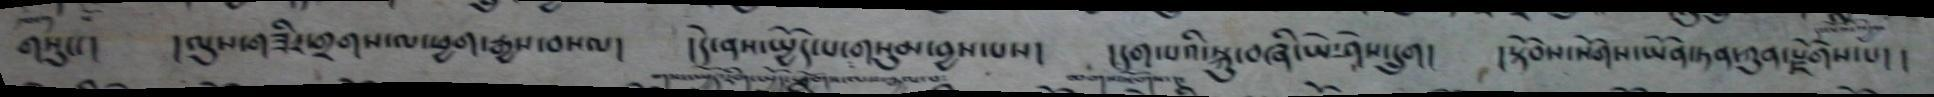གསུང།   །ལུས་གཟིར་གྲགས་ལ་ཕྱག་རྒྱས་བསལ།   །དེ་ནས་སྤྱོད་པ་གསུམ་བྱས་པས།   །དག་པའི་སྐུ་བཞི་ཡེ་ཤེས་དྲུག།   །སྟོབས་སོགས་ཡོན་ཏན་ཀུན་རྗོགས་པ། །
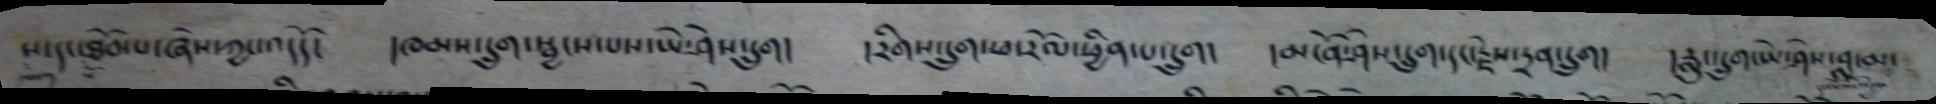ས་དང་ཐོབ་པ་ཞེས་ཀྱང་འདོད། །ཁམས་དྲུག་སྦྱངས་པས་ཡེ་ཤེས་དྲུག། །རིགས་དྲུག་ཕ རོལ་ཕྱིན་པ་དྲུག། །མངོན་ཤེས་དྲུག་དང་རྗེས་དྲན་དྲུག། །རླུང་དྲུག་ཡེ་ཤེས་བླ་མ་
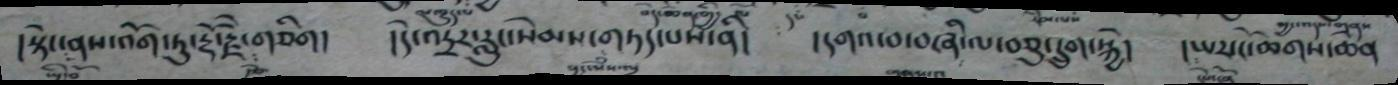།སྟེང་ནས་འོག་ཏུ་རྡོ་རྗེ་གཅིག།    །དེ་འདྲར་རླུང་སེམས་གཏད་པས་ནི།   །དགའ་བ་བཞི་ལ་བཅུ་དྲུག་སྐྱེ།  །ཡར་ངོ་ཆགས་ཆེན
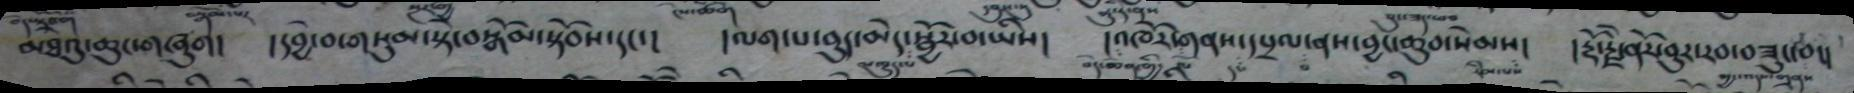མཐེའུ་ཆུང་གཞུག།   །དབྱེ་བ་གསུམ་སྟེ་བསྒོམ་སྟོབས་དང་།  །ལག་པ་བུད་མེད་སྦྱོར་བ་ཡིས།  །འཁོར་གནས་དཔྲལ་ནས་བྱང་ཆུབ་སེམས།   །རྡོ་རྗེ་ནོར་བུར་རབ་བཟུང་བ།།
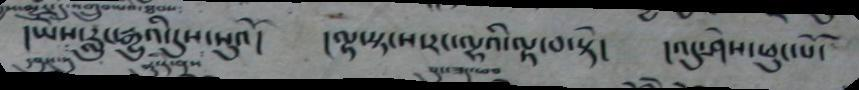།ཡེེས་རླུང་རྒྱུའི་དུས་སུའོ།    །ལྟ་སྟངས་རང་ལྷའི་ལྟ་བ་སྟེ།   །འདུ་ཤེས་ཕུང་པོ་
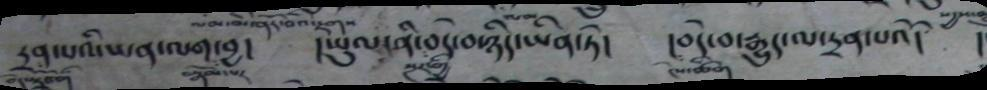དྲན་པའི་ཡན་ལག་བྱ།   །ཡུལ་ནི་བདེ་བ་ཉིད་ཡིན་ཏེ།    བདེ་བ་རྒྱུད་ལ་དྲན་པའོ།     །
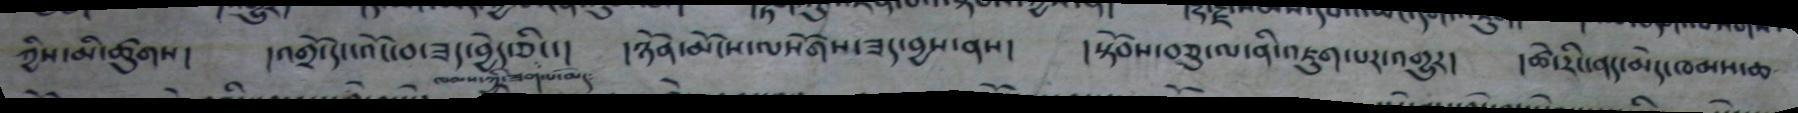ཀྱིས་མི་ཚུགས།   །འགྲོདང་འོང་བ་ཟད་བྱེད་ཅིང་།   །ཉོན་མོངས་ལསོགས་ཟད་བྱས་ནས།   །སྟོབས་བཅུ་ལ་ནི་འཇུག་པར་འགྱུར།   །ཚེ་རིང་ནད་མེད་ཁམས་ཆ
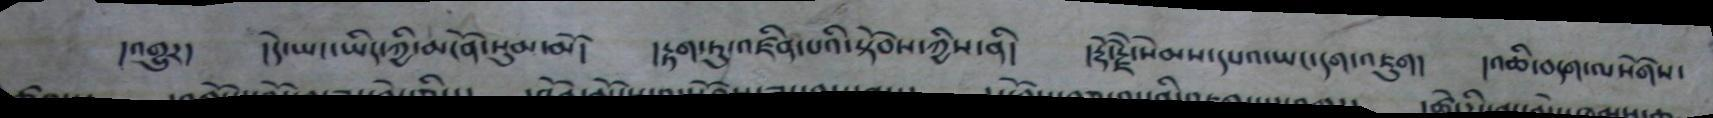འགྱུར། །དེ་ཡང་ཡིད་ཀྱི་མངོན་སུམ་མོ། །རྟག་ཏུ་འཛིན་པའི་སྟོབས་ཀྱིས་ནི། །རྡོ་རྗེ་སེམས་དཔའ་ཡང་དག་འཇུག། །འཆི་བདག་ལསོགས་
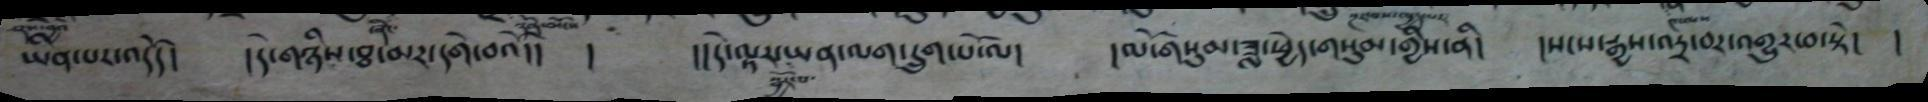ཡིན་པར་འདོད།  །དེ་གཉིས་ཐ་མར་དགེ་བའོ།།    །    །།དེལྟར་ཡན་ལག་དྲུག་པོ་ལ།   །ལོ་གསུམ་ཟླ་ཕྱེད་གསུམ་གྱིས་ནི།    །སངས་རྒྱས་འདྲ་བ་འགྱུར་བ་སྟེ།  །
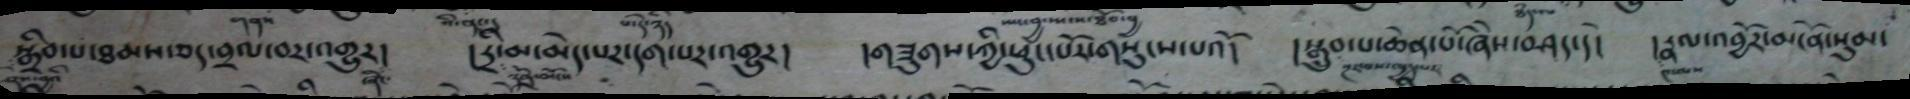སྒྲིབ་པ་ཐམས་ཅད་བྲལ་བར་འགྱུར།   །དྲི་མ་མེད་པར་དག་པར་འགྱུར།    །གཟུགས་ཀྱི་ཕུང་པོར་གསུངས་པའོ།   །སྒྲུབ་པ་ཆེན་པོ་ཞེས་བཤད་དེ།   །རྣལ་འབྱོར་མངོན་སུམ་
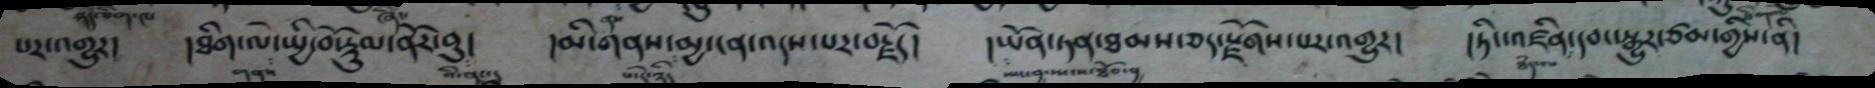པར་འགྱུར།   །ཐིག་ལེ་སྤྱི་བོ་རྡུལ་ནོར་བུ།   །མི་གནས་མྱ་ངན་འདས་པར་བརྗོད།   །ཡོན་ཏན་ཐམས་ཅད་རྫོགས་པར་འགྱུར།   །ཏིང་འཛིན་དབང་སྒྱུར་ཙམ་གྱིས་ནི།
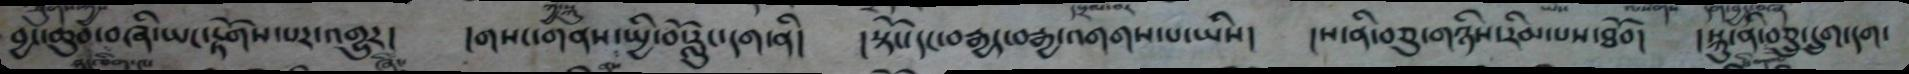བྱང་ཆུབ་བཞི་ཡང་རྟོགས་པར་འགྱུར།   །གསང་གནས་སྤྱི་བོ་རླུང་དག་ནི།  །སྟོང་དང་བརྒྱད་བརྒྱ་འགགས་པ་ཡིས།   །ས་ནི་བཅུ་གཉིས་རིམ་པས་ཐོབ།   །སྐུ་ནི་བཅུ་དྲུག་དག་
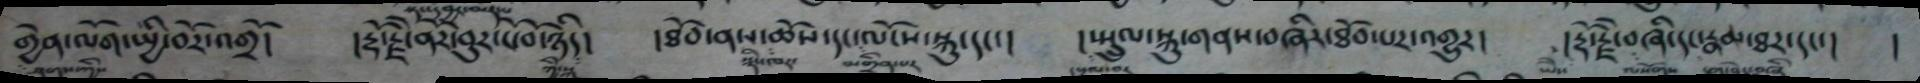གྱེན་ལོག་སྤྱི་བར་འགྲོ།    །རྡོ་རྗེ་ནོར་བུར་ངོ་བོ་ཉིད།   །ཐོབ་ནས་ཆོས་དང་ལོངས་སྐུ་དང་།   །སྤྲུལ་སྐུ་གནས་བཞིར་ཐོབ་པར་འགྱུར།   །རྡོ་རྗེ་བཞི་དང་རྣམ་ཐར་དང་།    །
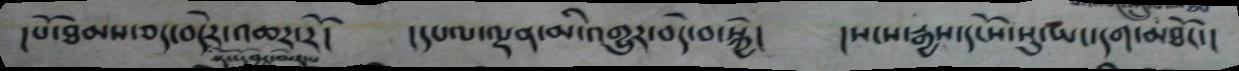།པོ་ཐམས་ཅད་བདེར་འཆར་རོ།   །དཔལ་ལྡན་མི་འགྱུར་བདེ་བ་སྐྱེ།   །སངས་རྒྱས་དངོས་སུ་ཡང་དག་མཐོང་།
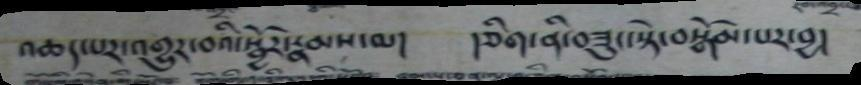འཆད་པར་འགྱུར་བའི་སྦྱོར་རྣམས་མ། །ཅིག་ནི་བཟུང་སྟེ་བསྒོམ་པར་བྱ།
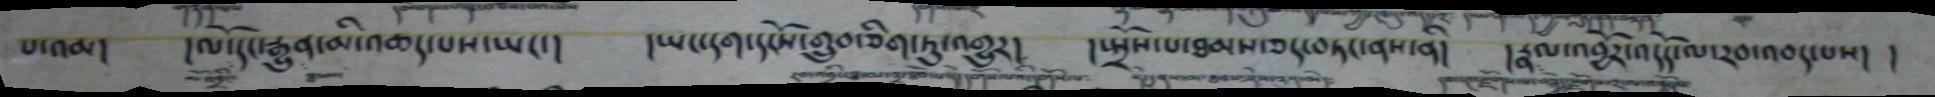པ་འམ།  །ལོ་དང་རྒྱུན་མི་འཆད་པས་ཡང་།   །ཡང་དག་དངོས་གྲུབ་ཅིག་ཏུ་འགྱུར།    །སྤྲོས་པ་ཐམས་ཅད་བཏང་ནས་ནི།   །རྣལ་འབྱོར་འདོད་ལ་རབ་འབད་པས།  །
